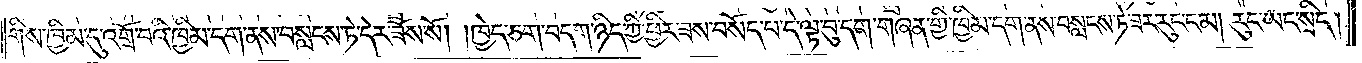གིས་ཁྱིམ་དུ་འགྲོ་བའི་ཁྱིམ་དག་ནས་བསླངས་ཏེ་དེར་ཟོས་སོ། །ཁྱེད་ཅག་བདག་ཉིད་ཀྱི་ཕྱིར་ཟས་བསོད་པ་དེ་ལྟ་བུ་དག་གཞན་གྱི་ཁྱིམ་དག་ནས་བསླངས་ཏེ་ཟར་རུང་ངམ། རུང་ཡང་སྲིད།
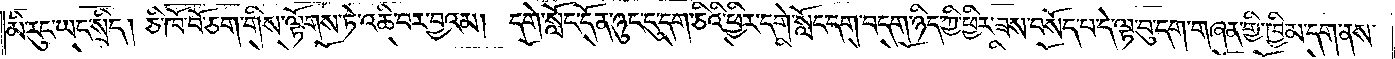མི་རུང་ཡང་སྲིད། ཅི་ཁོ་བོ་ཅག་གིས་ལྟོགས་ཏེ་འཆི་བར་བྱའམ། དགེ་སློང་དོན་ཉུང་དུ་དག་ཅིའི་ཕྱིར་དགེ་སློང་དག་བདག་ཉིད་ཀྱི་ཕྱིར་ཟས་བསོད་པ་དེ་ལྟ་བུ་དག་གཞན་གྱི་ཁྱིམ་དག་ནས་
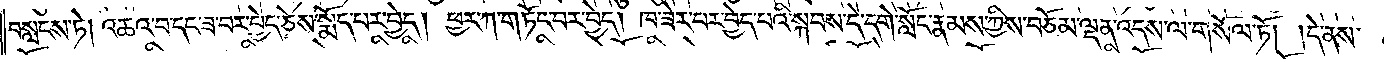བསླངས་ཏེ། འཆའ་བ་དང་ཟ་བར་བྱེད་ཅེས་སྨོད་པར་བྱེད། ཕྱར་ཀ་གཏོང་བར་བྱེད། ཁ་ཟེར་བར་བྱེད་པའི་སྐབས་དེ་དགེ་སློང་རྣམས་ཀྱིས་བཅོམ་ལྡན་འདས་ལ་གསོལ་ཏོ། །དེ་ནས་
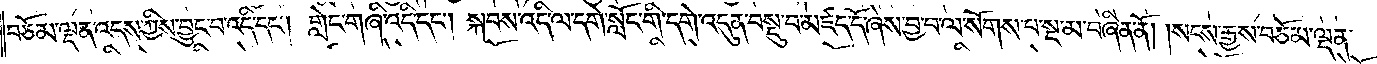བཅོམ་ལྡན་འདས་ཀྱིས་བྱུང་བ་འདི་དང༌། གླེང་གཞི་འདི་དང༌། སྐབས་འདི་ལ་དགེ་སློང་གི་དགེ་འདུན་བསྡུ་བ་མཛད་དོ་ཞེས་བྱ་བ་ལ་སོགས་པ་སྔ་མ་བཞིན་ནོ། །སངས་རྒྱས་བཅོམ་ལྡན་
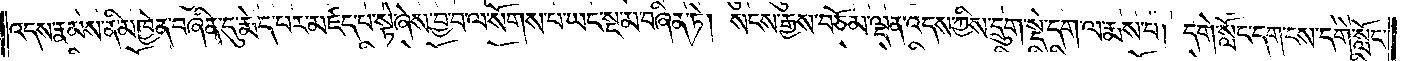འདས་རྣམས་ནི་མཁྱེན་བཞིན་དུ་རྨེད་པར་མཛད་པ་སྟེ་ཞེས་བྱ་བ་ལ་སོགས་པ་ཡང་སྔ་མ་བཞིན་ཏེ། སངས་རྒྱས་བཅོམ་ལྡན་འདས་ཀྱིས་དྲུག་སྡེ་དག་ལ་རྨས་པ། དགེ་སློང་དག་ངས་དགེ་སློང་
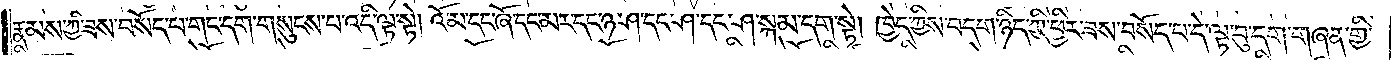རྣམས་ཀྱི་ཟས་བསོད་པ་གང་དག་གསུངས་པ་འདི་ལྟ་སྟེ། འོ་མ་དང་ཞོ་དང་མར་དང་ཉ་ཤ་དང་ཤ་དང་ཤ་སྐམ་དག་སྟེ། ཁྱེད་ཀྱིས་བདག་ཉིད་ཀྱི་ཕྱིར་ཟས་བསོད་པ་དེ་ལྟ་བུ་དག་གཞན་གྱི་
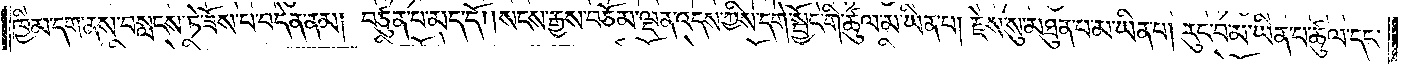ཁྱིམ་དག་ནས་བསླངས་ཏེ་ཟོས་པ་བདེན་ནམ། བཙུན་པ་མད་དོ། །སངས་རྒྱས་བཅོམ་ལྡན་འདས་ཀྱིས་དགེ་སྦྱོང་གི་ཚུལ་མ་ཡིན་པ། རྗེས་སུ་མཐུན་པ་མ་ཡིན་པ། རུང་བ་མ་ཡིན་པ་ཚུལ་དང་
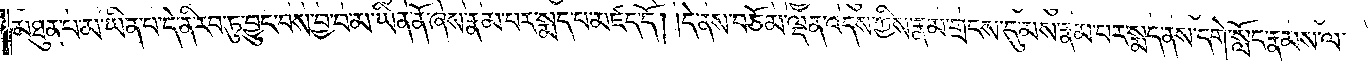མཐུན་པ་མ་ཡིན་པ་དེ་ནི་རབ་ཏུ་བྱུང་བས་བྱ་བ་མ་ཡིན་ནོ་ཞེས་རྣམ་པར་སྨད་པ་མཛད་དོ། །དེ་ནས་བཅོམ་ལྡན་འདས་ཀྱིས་རྣམ་གྲངས་དུ་མས་རྣམ་པར་སྨད་ནས་དགེ་སློང་རྣམས་ལ་
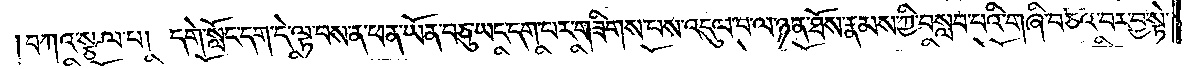བཀའ་སྩལ་པ། དགེ་སློང་དག་དེ་ལྟ་བས་ན་ཕན་ཡོན་བཅུ་ཡང་དག་པར་གཟིགས་པས་འདུལ་བ་ལ་ཉན་ཐོས་རྣམས་ཀྱི་བསླབ་པའི་གཞི་བཅའ་བར་བྱ་སྟེ་
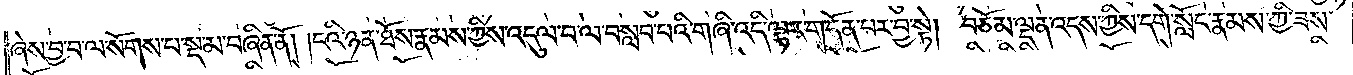ཞེས་བྱ་བ་ལ་སོགས་པ་སྔ་མ་བཞིན་ནོ། །ངའི་ཉན་ཐོས་རྣམས་ཀྱིས་འདུལ་བ་ལ་བསླབ་པའི་གཞི་འདི་ལྟར་གདོན་པར་བྱ་སྟེ། བཅོམ་ལྡན་འདས་ཀྱིས་དགེ་སློང་རྣམས་ཀྱི་ཟས་
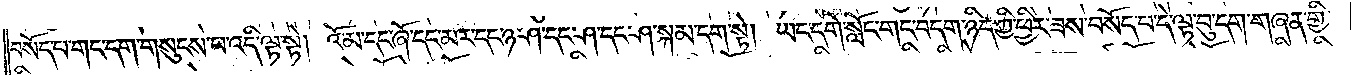བསོད་པ་གང་དག་གསུངས་པ་འདི་ལྟ་སྟེ། འོ་མ་དང་ཞོ་དང་མར་དང་ཉ་ཤ་དང་ཤ་དང་ཤ་སྐམ་དག་སྟེ། ཡང་དགེ་སློང་གང་བདག་ཉིད་ཀྱི་ཕྱིར་ཟས་བསོད་པ་དེ་ལྟ་བུ་དག་གཞན་གྱི་
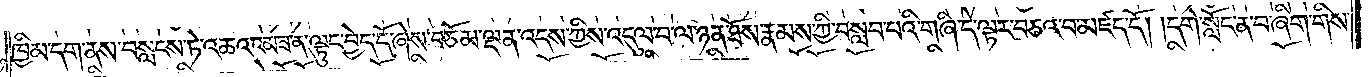ཁྱིམ་དག་ནས་བསླངས་ཏེ་འཆའ་འམ་ཟ་ན་ལྟུང་བྱེད་དོ་ཞེས་བཅོམ་ལྡན་འདས་ཀྱིས་འདུལ་བ་ལ་ཉན་ཐོས་རྣམས་ཀྱི་བསླབ་པའི་གཞི་དེ་ལྟར་བཅའ་བ་མཛད་དོ། །དགེ་སློང་ན་བ་ཞིག་གིས་
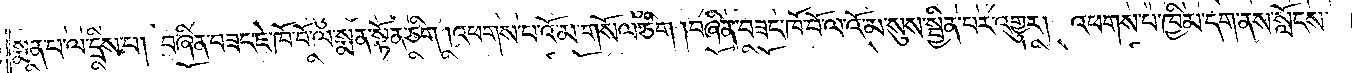སྨན་པ་ལ་དྲིས་པ། བཞིན་བཟང་ཇེ་ཁོ་བོ་ལ་སྨན་སྟོན་ཅིག །འཕགས་པ་འོ་མ་གསོལ་ཅིག །བཞིན་བཟང་ཁོ་བོ་ལ་འོ་མ་སུས་སྦྱིན་པར་འགྱུར། འཕགས་པ་ཁྱིམ་དག་ནས་སློངས་
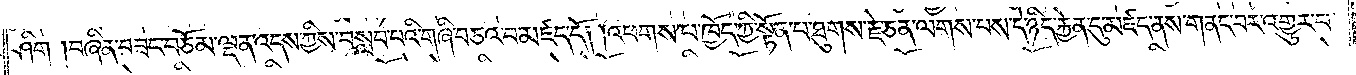ཤིག །བཞིན་བཟང་བཅོམ་ལྡན་འདས་ཀྱིས་བསླབ་པའི་གཞི་བཅའ་བ་མཛད་དོ། །འཕགས་པ་ཁྱོད་ཀྱི་སྟོན་པ་ཐུགས་རྗེ་ཅན་ལགས་པས་དེ་ཉིད་རྐྱེན་དུ་མཛད་ནས་གནང་བར་འགྱུར་བ་
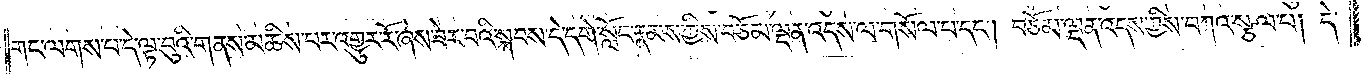གང་ལགས་པ་དེ་ལྟ་བུའི་གནས་མཆིས་པར་འགྱུར་རོ་ཞེས་ཟེར་བའི་སྐབས་དེ་དགེ་སློང་རྣམས་ཀྱིས་བཅོམ་ལྡན་འདས་ལ་གསོལ་པ་དང༌། བཅོམ་ལྡན་འདས་ཀྱིས་བཀའ་སྩལ་པ། དེ་
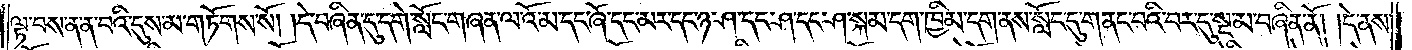ལྟ་བས་ན་ན་བའི་དུས་མ་གཏོགས་སོ། །དེ་བཞིན་དུ་དགེ་སློང་གཞན་ལ་འོ་མ་དང་ཞོ་དང་མར་དང་ཉ་ཤ་དང་ཤ་དང་ཤ་སྐམ་དག་ཁྱིམ་དག་ནས་སློང་དུ་གནང་བའི་བར་དུ་སྔ་མ་བཞིན་ནོ། །དེ་ནས་
